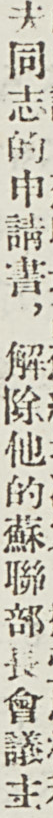夫同志的申請書，解除他的蘇聯部長會議主
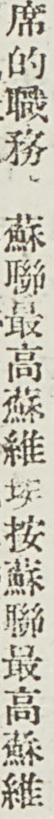席的職務。蘇聯最高蘇維埃按蘇聯最高蘇維
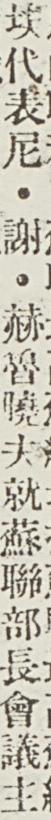埃代表尼・謝・赫魯曉夫就蘇聯部長會議主
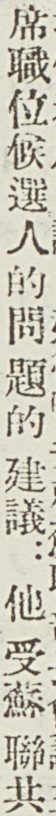席職位候選人的問題的建議：他受蘇聯共
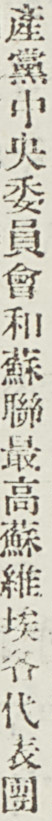產黨中央委員會和蘇聯最高蘇維埃各代表團
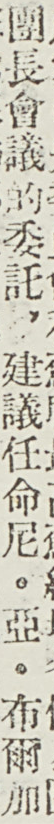團長會議的委託，建議任命尼・亞・布爾加
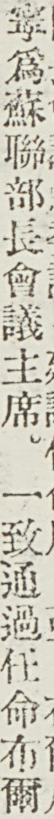寧爲蘇聯部長會議主席。一致通過任命布爾
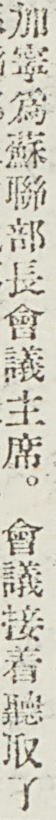加寧爲蘇聯部長會議主席。會議接着聽取了
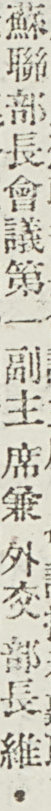蘇聯部長會議第一副主席兼 外交 部長維・
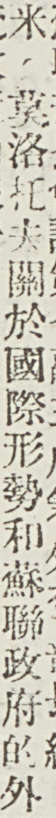米・莫洛托夫關於國際形勢和蘇聯政府的外
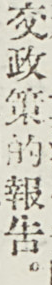交政策的報告。
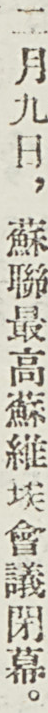二月九日，蘇聯最高蘇維埃會議閉幕。
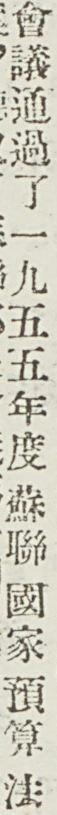會議通過了一九五五年度蘇聯國家預算法
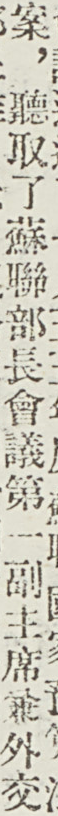案，聽取了蘇聯部長會議第一副主席兼外交
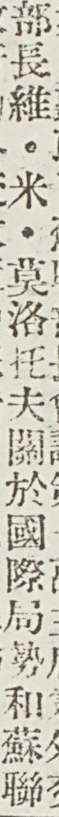部長維・米・莫洛托夫關於國際形勢和蘇聯
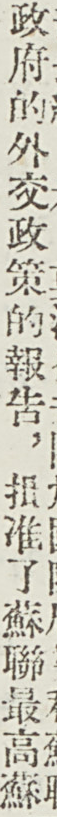政府的外交政策的報告，批准了蘇聯最高蘇
